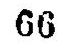66
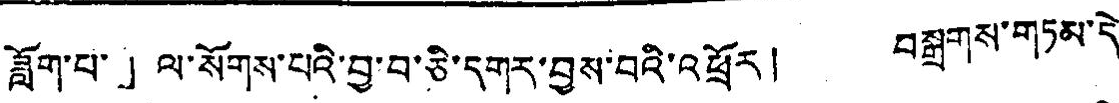ཟློག་པ་」ལ་སོགས་པའི་བྱ་བ་ཅེ་དགར་བྱས་བའི་འཕྲོར། བསྒྲགས་གཏམ་དེ་
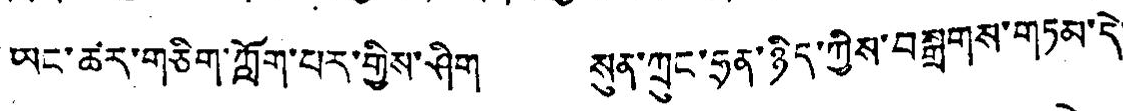ཡང་ཚར་གཅིག་ཀློག་པར་གྱིས་ཤིག སུན་ཀྲུང་ཧྲན་ཉིད་ཀྱིས་བསྒྲགས་གཏམ་དེ་
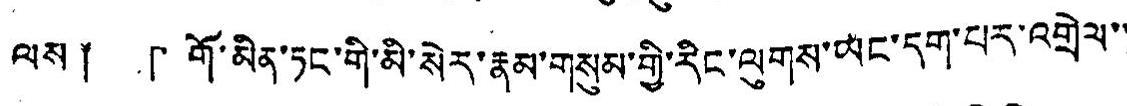ལས ༐ 「གོ་མིན་ཏང་གི་མི་སེར་རྣམ་གསུམ་གྱི་རིང་ལུགས་ཡང་དག་པར་འགྲེས་་
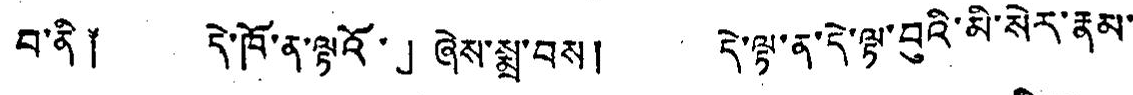བ་ནི༐ དེ་ཁོ་ན་ལྟའོ་」ཞེས་སྨྲ་བས། དེ་ལྟ་ན་དེ་ལྟ་བུའི་མི་སེར་རྣམ་
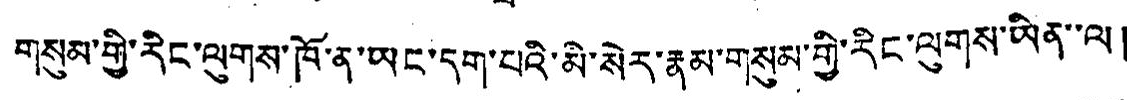གསུམ་གྱི་རིང་ལུགས་ཁོ་ན་ཡང་དག་པའི་མི་སེར་རྣམ་གསུམ་གྱི་རིང་ལུགས་ཡིན་་ལ།
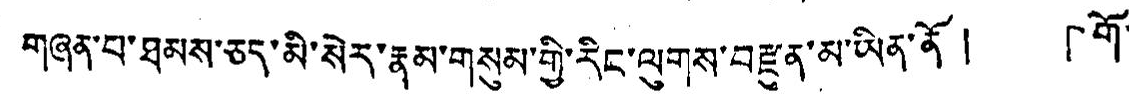གཞན་པ་ཐམས་ཅད་མི་སེར་རྣམ་གསུམ་གྱི་རིང་ལུགས་བརྫུན་མ་ཡིན་ནོ ། 「གོ་
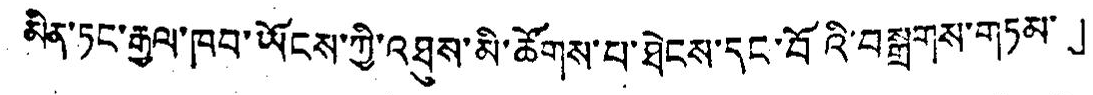མིན་ཏང་རྒྱལ་ཁབ་ཡོངས་ཀྱི་འཐུས་མི་ཚོགས་པ་ཐེངས་དང་བོའི་བསྒྲགས་གཏམ་」
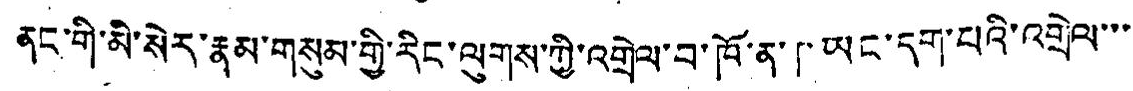ནང་གི་མི་སེར་རྣམ་གསུམ་གྱི་རིང་ལུགས་ཀྱི་འགྲེལ་བ་ཁོ་ན་「ཡང་དག་པའི་འགྲེལ་་་
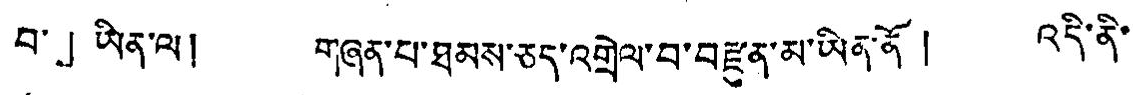བ་」ཡིན་ལ། གཞན་པ་ཐམས་ཅད་འགྲེལ་བ་བརྫུན་མ་ཡིན་ནོ ། འདི་ནི་
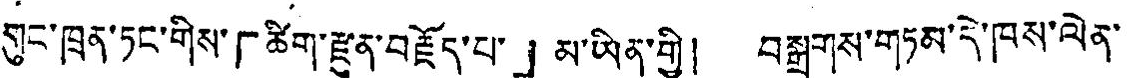གུང་ཁྲན་ཏང་གིས་「ཚིག་རྫུན་བརྗོད་པ་」མ་ཡིན་གྱི། བསྒྲགས་གཏམ་དེ་ཁས་ལེན་
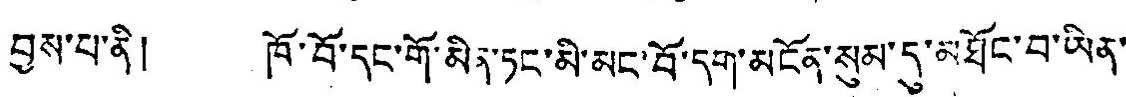བྱས་པ་ནི། ཁོ་བོ་དང་གོ་མིན་ཏང་མི་མང་བོ་དག་མངོན་སུམ་དུ་མཐོང་བ་ཡིན་
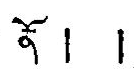ནོ། །
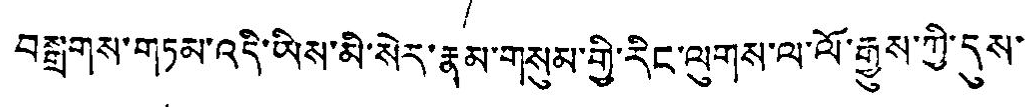བསྒྲགས་གཏམ་འདི་ཡིས་མི་སེར་རྣམ་གསུམ་གྱི་རིང་ལུགས་ལ་ལོ་རྒྱུས་ཀྱི་དུས་
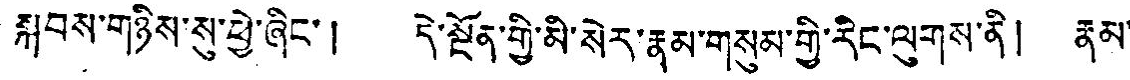སྐབས་གཉིས་སུ་ཕྱེ་ཞིང་། དེ་སྔོན་གྱི་མི་སེར་རྣམ་གསུམ་གྱི་རིང་ལུགས་ནོ། རྣམ་
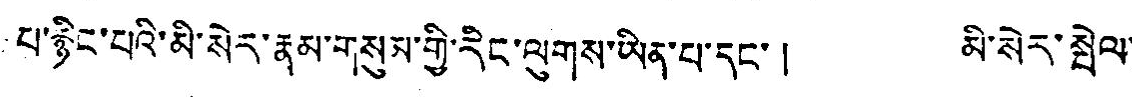པ་རྙིང་པའི་མི་སེར་རྣམ་གསུལ་གྱི་རིང་ལུགས་ཡིན་པ་དང་། མི་སེར་སྤེལ་
